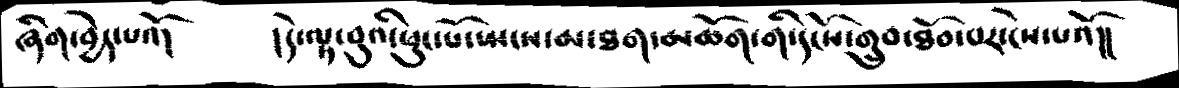ཞིག་བྱེད་པའོ།    ། དེ་ལྟ་བུའི་ཕུང་པོ་སྤངས་མ་ཐག་མཆོག་གི་དངོས་གྲུབ་ཐོབ་པར་ངེས་པའོ།།
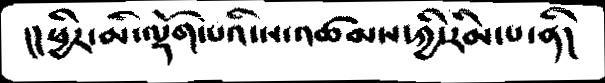།། ཕྱིར་མི་ལྡོག་པའི་ས་འཚམས་ཀྱི་རིམ་པ་ནི།
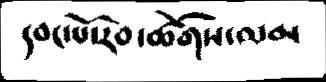དབང་པོ་རབ་ཚོགས་ལམ
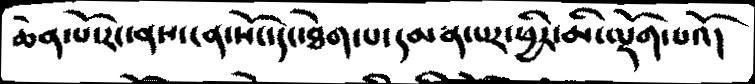ཆེན་པོ་རང་ནས་ངན་སོང་དང་ཐེག་པ་དམན་པར་ཕྱིར་མི་ལྡོག་པའོ།
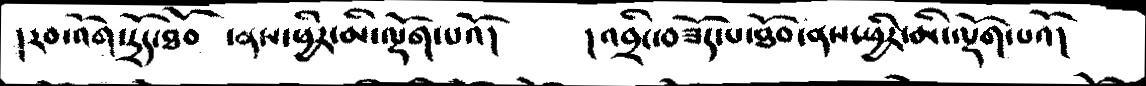།   རབ་འོག་དྲོད་ཐོབ  ་ནས་ཕྱིར་མི་ལྡོག་པའོ།        ། འབྲིང་བཟོད་པ་ཐོབ་ནས་ཕྱིར་མི་ལྡོག་པའོ།
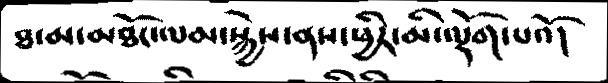ཐ་མ་མཐོང་ལམ་སྐྱེས་ནས་ཕྱིར་མི་ལྡོག་པའོ།
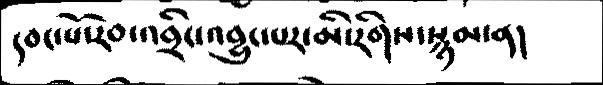དབང་པོ་རབ་འབྲིང་འབྱུང་པར་མི་རིགས་སྙམན།
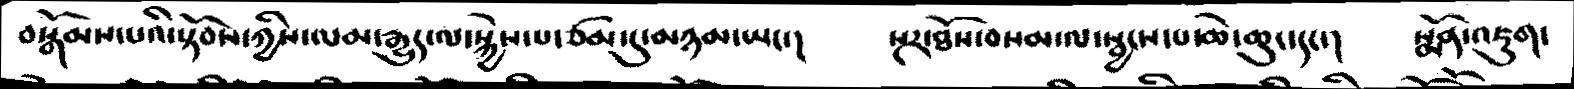བསྒོམས་པའི་སྟོབས་ཀྱིས་ལམ་རྒྱུད་ལ་སྐྱེས་པ་ཙམ་དུ་མཉམ་ཡང་།   སྔར་ཐོས་བསམ་ལ་སྦྱངས་པ་ཆེ་ཆུ་དང་།   སྨོན་འཇུག་
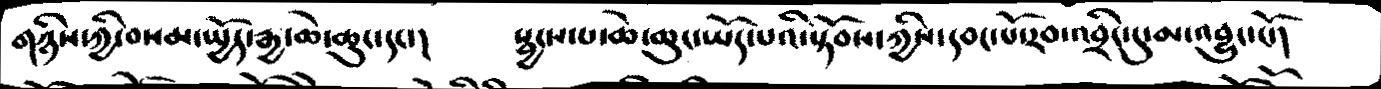གཉིས་ཀྱི་བསམ་ཡྱོད་རྒྱ་ཆེ་ཆུང་དང་།   སྦྱངས་པ་ཆེ་ཆུང་ཡོད་པའི་སྟོབས་ཀྱིས་དབང་པོ་རབ་འབྲིང་དུ་མ་འབྱུང་ངོ་།
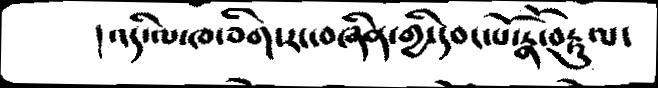། འདི་ལ་ཁ་ཅིག་རང་བཞིན་གྱི་དབང་པོ་རྣོ་བརྟུལ་
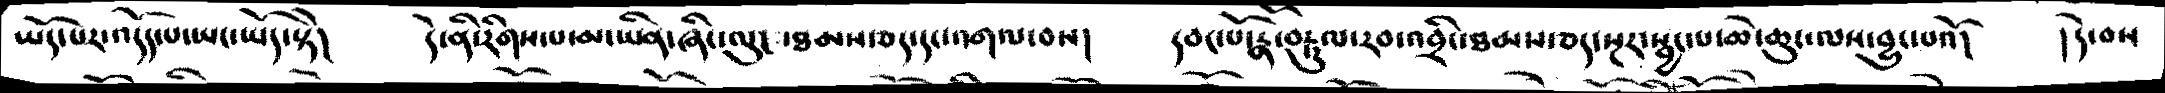ཡོད་པར་འདོད་པ་ཡང་ཡོད་སྟེ།   དེ་ནི་རིགས་པ་མ་ཡིན་ཞིང་ལུང ་ཐམས་ཅད་དང་འགལ་བས།   དབང་པོ་རྣོ་བརྟུལ་རབ་འབྲིང་ཐམས་ཅད་སྔར་སྦྱང་པ་ཆེ་ཆུང་ལས་བྱུང་པའོ།  །དེ་བས
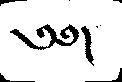༅།
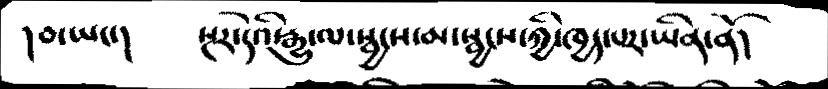།བ་ཡང་།      སྔར་དེའི་རྒྱུ་ལ་སྦྱངས་མ་སྦྱངས་ཀྱི་ཁྱད་པར་ཡིན་ནོ།
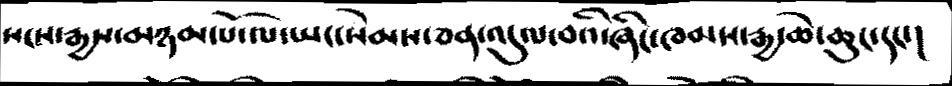སངས་རྒྱས་མཉམ་པོ་ལ་ཡང་སེམས་ཅན་འདུལ་བའི་ཞིང་ཁམས་རྒྱ་ཆེ་ཆུང་དང་།
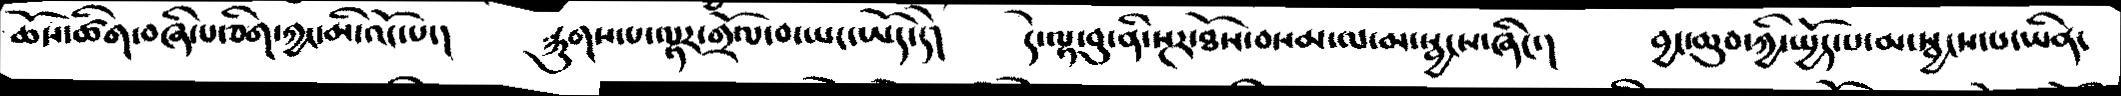ཆོས་ཚིག་བཞི་པ་ཅིག་ཀྱང་མི་འོང་པ་།   རྐུགས་པ་ལྟར་གྲོལ་བ་ཡང་ཡོད་དེ།  དེ་ལྟ་བུ་ནི་སྔར་ཐོས་བསམ་ལ་མ་སྦྱངས་ཞིང་།   བྱང་ཆུབ་ཀྱི་ཡྱོད་པ་མ་སྦྱངས་པ་ཡིན་
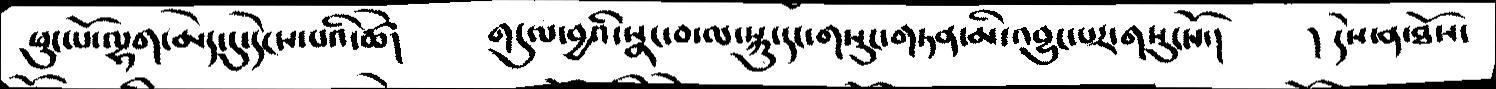ཕུང་པོ་ལྷག་མེད་དུ་དེངས་པའི་ཚེ།     གདུལ་བྱའི་སྣང་བ་ལ་སྐུ་དང་གསུང་གཏན་མི་འབྱུང་པར་གསུངསོ་།    ། དེས་ན་ཐོས་
